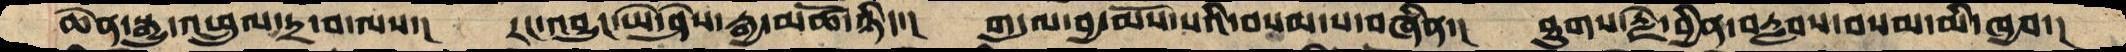ཆེན་སྒྱུ་འཕྲུལ་དྲ་བ་ལས་།  རང་བྱུང་ཡེ་ཤེས་རྒྱ་མཚོ་ཉིད་།  གདུལ་བྱ་མོས་པའི་བསམ་པ་བཞིན་།  ཐུགས་རྗེ་བྱིན་བརླབས་་བསམ་མི་ཁྱབ་།
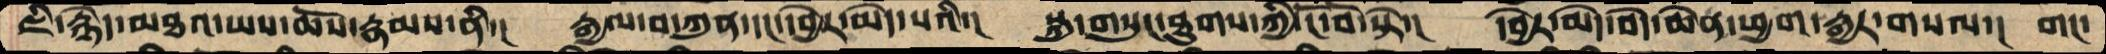ཇི་རྙེད་མཐའ་ཡས་ཆོས་རྣམས་ནི་།  རྒྱལ་བ་ཀུན་དང་དབྱེར་མེད་པའི་།  སྐུ་གསུང་ཐུགས་ཀྱི་ངོ་བོ་སྟེ་།  དབྱེར་མེད་བདེ་ཆེན་ཕྱག་རྒྱར་གསལ་།  གང་
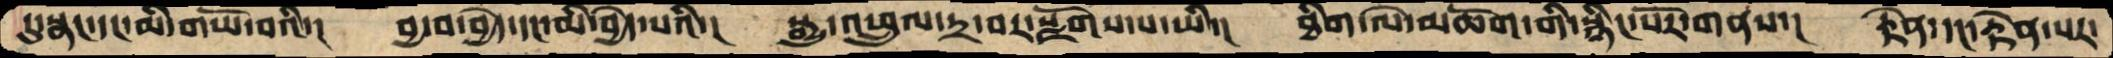དུ་སྣང་དང་མི་གཡོ་བའི་།  བྱ་བ་བྱེད་དང་མི་བྱེད་པའི་།  སྒྱུ་འཕྲུལ་དྲ་བར་སྫོགས་པ་ཡི་།  ཐིག་ལེ་མཆོག་གི་སྙིང་པོར་གནས་།  རྟེན་དང་རྟེན་པར་
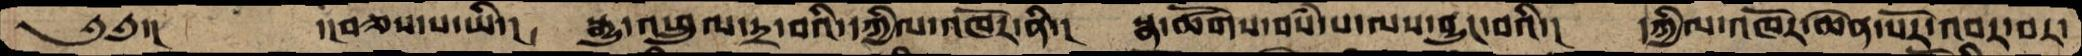༄༅་།     ་།བཅས་པ་ཡི་།  སྒྱུ་འཕྲུལ་དྲ་བའི་དཀྱིལ་འཁོར་ནི་།  སྣ་ཚོགས་བསཾ་པ་ལས་བྱུང་བའི་།  དཀྱིལ་འཁོར་ཆེན་པོར་འབར་བར་
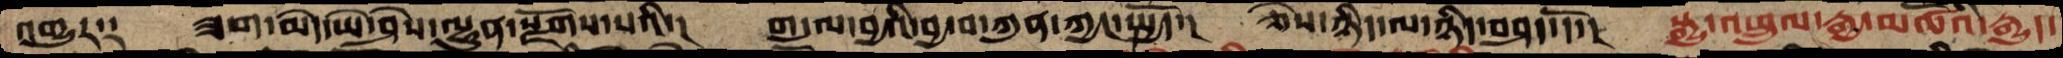འགྱུར༑  ཟག་མེད་ཡེ་ཤེས་ལྷུན་སྫོགས་པའི་།  གདུལ་བྱའི་བྱ་བ་ཀུན་ཀྱང་སྤྱོད་།  ཅེས་ཉིད་ལ་ཉིད་བཤད་དོ་།  སྒྱུ་འཕྲུལ་རྒྱ་མཚོའི་རྒྱུད་
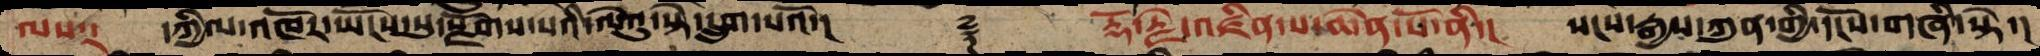ལས༑   དཀྱིལ་འཁོར་ཡོངས་སུ་སྫོགས་པའི་ལེའུ་སྟེ་དྲུག་པའོ་།     ࿑  རྡོ་རྗེ་འཛིན་པ་ཆེན་པོ་ནི་།  སངས་རྒྱས་ཀུན་གྱི་དངོས་གཞི་སྟེ་།
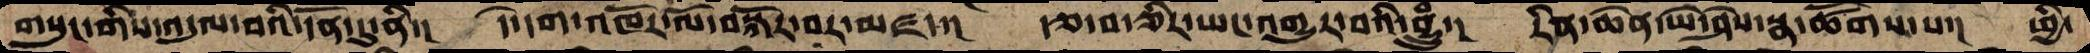གསུང་གིས་འདུལ་བའི་དོན་དུ་ནི་།  དེ་དག་འཁོར་ལོ་བསྐོར་བར་མཛད་།  རྩ་བ་ཅིར་ཡང་འགྱུར་བའི་བྷྲུཾ་།  རིན་ཆེན་ཡེ་ཤེས་སྣ་ཚོགས་པ་།  ཕྱི་
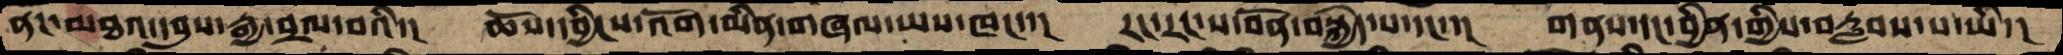ནང་མཐའ་དབུས་རྒྱ་བྲལ་བའི་།  ཆོས་དབྱིངས་འོག་མིན་གཞལ་ཡས་ཁང་་།  རང་རང་ས་བོན་བསྐྱེད་པ་དང་་།  གནས་དང་བྱིན་གྱིས་བརླབས་པ་ཡི་།
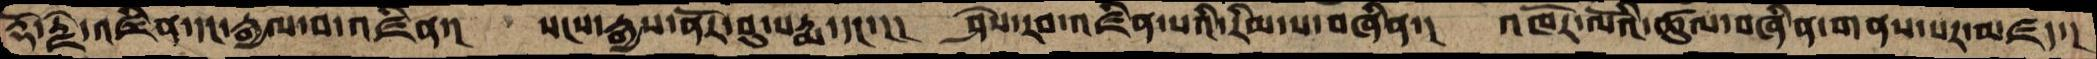རྡི་རྗེ་འཛིན་དང་རྒྱལ་བ་འཛིན་།  སངས་རྒྱས་ནོར་བུ་པདྨ་དང་།།།    ཤེས་རབ་འཛིན་པའི་རིམ་པ་བཞིན་།  འཁོར་ལོའི་ཚུལ་བཞིན་གནས་པར་མཛད་།
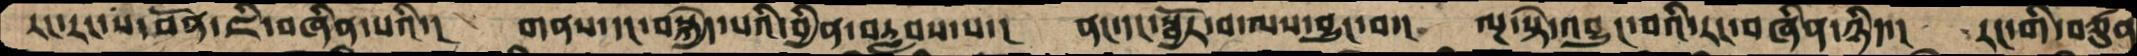རང་རང་ས་བོན་ཇི་བཞིན་པའི་།  གནས་དང་བསྐྱེད་པའི་བྱིན་བརླབས་པ་།  ནང་དང་སྦྱོར་བ་ལས་བྱུང་བ་།  ལྔ་སྟེ་འབྱུང་བའི་རང་བཞིན་ཉིད་།  རང་གི་བཙུན
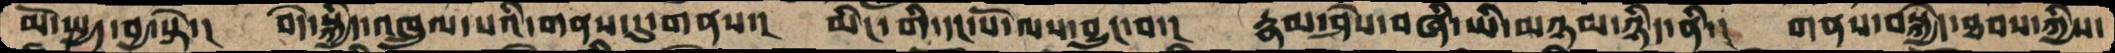མོ་སྤྱད་བྱ་སྟེ་།  བདེ་སྐྱིད་འཁྲུལ་པའི་གནས་དུ་གནས་།  མིང་གི་དང་པོ་ལས་བྱུང་བ་།  རྣམ་ཤེས་བཞི་ཡི་མཉམ་ཉིད་ནི་།  གནས་བསྐྱེད་ཐབས་ཀྱིས་
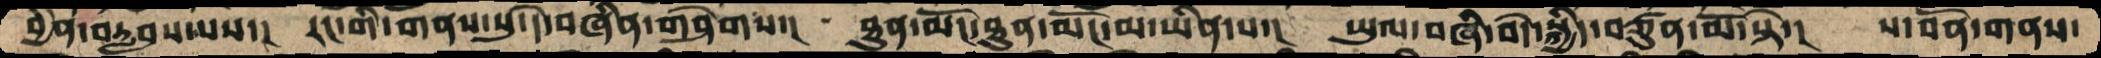བྱིན་བརླབས་པས་།   རང་གི་གནས་སུ་དེ་བཞིན་གཤེགས་།  ཐུན་མོང་ཐུན་མོང་མ་ཡིན་པ་།  ཡུལ་བཞི་བདེ་སྐྱིད་བཙུན་མོ་སྟེ་།  ས་བོན་གནས་
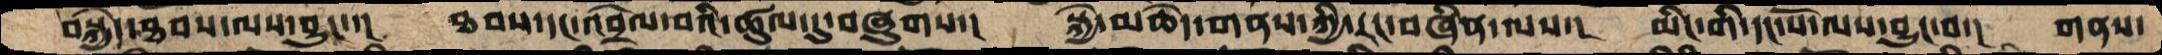བསྐྱེད་ཐབས་ལས་བྱུང་་།  ཐབས་དང་འབྲེལ་བའི་ཚུལ་དུ་བཞུགས་།   སྐྱེ་མཆེད་གནས་ཀྱི་རང་བཞིན་ལས་།  མིང་གི་དང་པོ་ལས་བྱུང་བ་།  གནས་
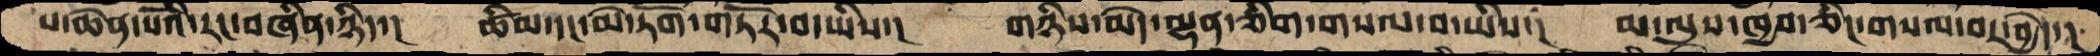པ་ཆེན་པོའི་རང་བཞིན་ཉིད་།   ཚིམ་དང་མེ་ཏོག་གཏོར་བ་ཡིས་།  གཉིས་མེད་ལྷན་ཅིག་གསལ་བ་ཡིས་།  མ་ལུས་ཁྱབ་ཅིང་གསལ་བར་བྱེད་།
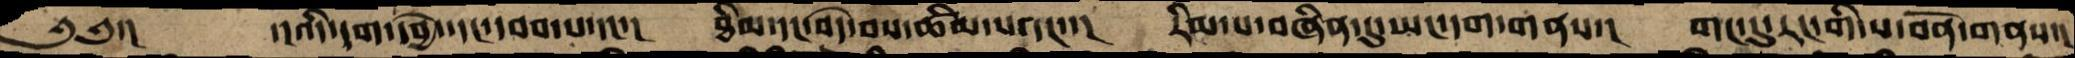༄༅་།      ་།འདི་དག་དབྱེ་དང་དབབ་པ་དང་།   ཐིམ་དང་བདེ་བས་ཚིམ་པ་དང་་།   རིམ་པ་བཞིན་དུ་ཡང་དག་གནས་།  གང་དུ་རང་གི་ས་བོན་གནས་།
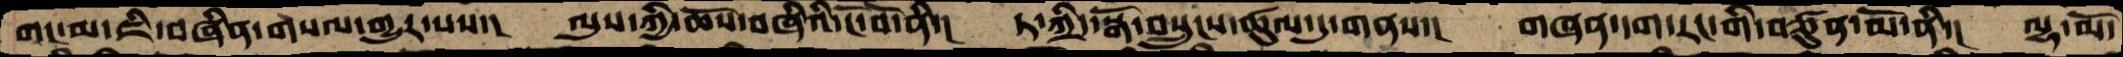གང་མ་ཇི་བཞིན་གསལ་གྱུར་པས་།  ལུས་ཀྱི་ཆོས་བཞིའི་ངོ་བོ་ནི་།  ཏ་ཀྲིད་སྒོ་བསྲུངས་ཚུལ་དུ་གནས་། གཞན་དག་རང་གི་བཙུན་མོ་ནི་།  ལྷ་མོ་
